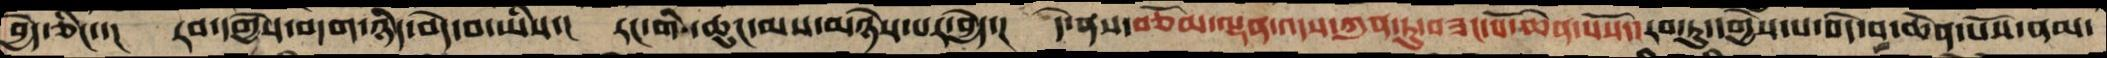བྱེད་ཅིང་་།  རབ་དགྱེས་བདག་ཉིད་བདེ་བ་ཡིས་།  རང་གི ་ཆུང་མས་མཉེས་པར་བྱེད་།  དེ་ནས་བཅོམ་ལྡན་འདས་ཀུན་ཏུ་བཟང་པོ་ཆེན་པོས་་རབ་ཏུ་དགྱེས་པ་བདེ་བ་ཆེན་པོས་ནམ་
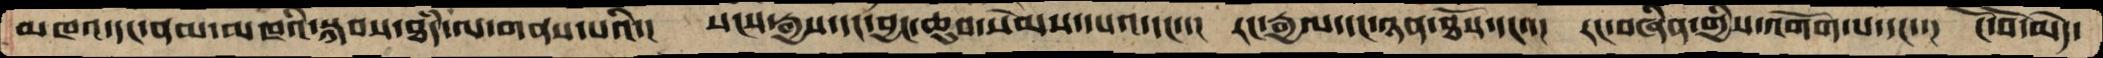མཁའ་དང་ནམ་མཁའི་སྐབས་ཐཾད་ལ་གནས་པའི་།  སངས་རྒྱས་དང་བྱང་ཆུབ་སེམས་དཔའ་དང་་།  རང་རྒྱལ་དང་ཉན་ཐོས་དང་་།  རང་བཞིན་གྱིས་འགོག་པ་དང་་།  ངོ་བོ་མེད་
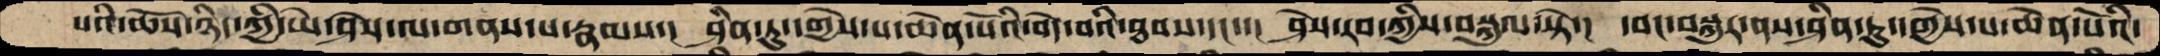པའི་ཆོས་ཉིད་ཀྱི་ཡེ་ཤེས་ལ་གནས་པ་རྣམས་།  ཤིན་ཏུ་དགྱེས་པ་ཆེན་པོའི་བདེ་བའི་ཐབས་དང་་།  ཤེས་རབ་ཀྱིས་བསྐུལ་སྟེ་།  དབང་བསྐུར་ནས་ཤིན་ཏུ་དགྱེས་པ་ཆེན་པོའི་
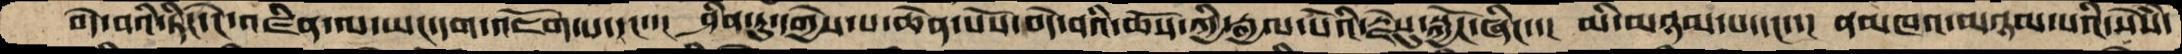བདེ་བའི་ཏིང་ངེ་འཛིན་ལ་ཡང་དག་འཇོག་པ་དང་་།  ཤིན་ཏུ་དགྱེས་པ་ཆེན་པོས་བདེ་བའི་ཆོས་ཀྱི་རྒྱལ་པོའི་རྗེསུ་སྐྱོང་ཞིང་་།  མི་མཉམ་པ་དང་་།  ནམཁའ་མཉམ་པའི་སེསཾ་
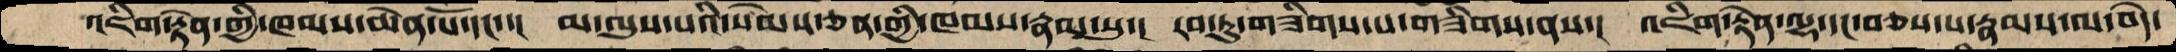འཇིག་རྟེན་གྱི་ཁམས་ཆེན་པོ་དང་་།  མ་ལུས་པའི་སེམས་ཅན་གྱི་ཁམས་རྣམ་སུ་།  རབ་ཏུ་གཟིགས་པ་གཟིགས་ནས་།  འཇིག་རྟེན་ལྷ་དང་བཅས་པ་རྣམས་ལ་བདེ་
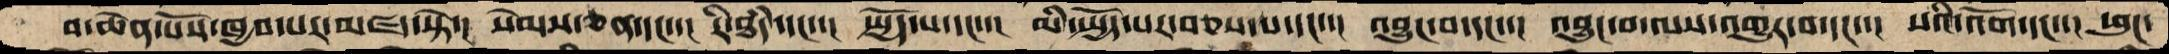བ་ཆེན་པོས་ཁྱབ་པར་མཛད་སྟེ་།  སེམས་ཅན་དང་་།  རི་ཐཾད་དང་་།  སྤྱོད་པ་དང་་།  མི་སྤྱོད་པར་བཅས་པ་དང་་།  འབྱུང་བ་དང་་།  འབྱུང་བ་ལས་འགྱུར་བ་དང་་།  སའི་འོག་དང་་།  ཕུང་
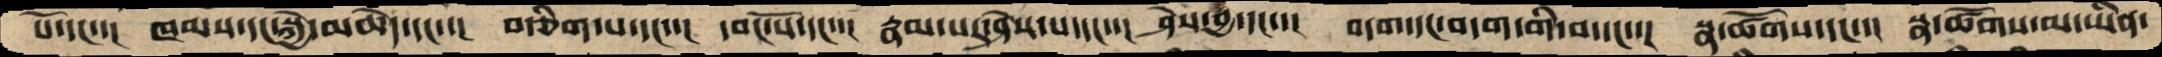པོ་དང་་།  ཁམས་དང་སྐྱེ་མཆེད་དང་་།  བརྩིག་པ་དང་་།  དབང་པོ་དང་་།  རྣམ་པར་ཤེས་པ་དང་་།  ཤེས་བྱ་དང་་།  བདག་དང་བདག་གི་བ་དང་་།  སྣ་ཚོགས་དང་་།  སྣ་ཚོགས་མ་ཡིན་
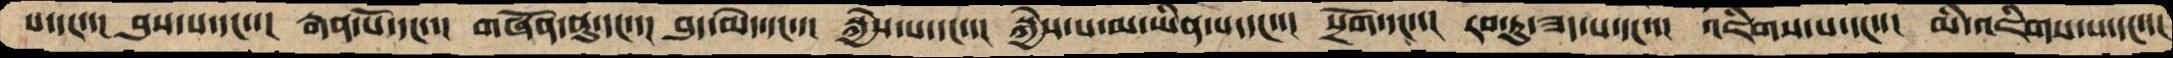པ་དང་་།  བུས་པ་དང་་།  རྒན་པོ་དང་་།  གཞོན་ནུ་དང་་།  བུ་མེད་དང་་།  སྐྱེས་པ་དང་་།  སྐྱེས་པ་མ་ཡིན་པ་དང་་།  སྲོག་དང་་།   རབ་ཏུ་ཟད་པ་དང་་།  འཇིགས་པ་དང་་།  མི་འཇིགས་པ་དང་་།
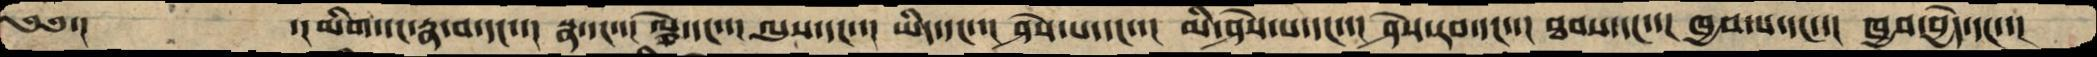༄༅་།           ་། མིག་དང་རྣ་བ་དང་་། སྣ་དང་་། ལྕེ་དང་་། ལུས་དང་་། ཡིད་དང་་། ཤེས་པ་དང་་། མི་ཤེས་པ་དང་་། ཤེས་རབ་དང་་། ཐབས་དང་་། ཁྱབ་པ་དང་་། ཁྱབ་བྱེད་དང་་།
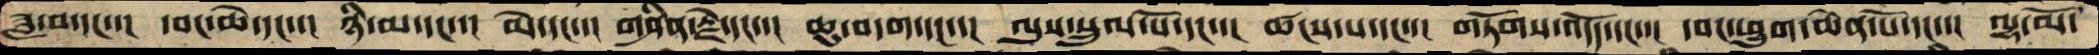ཟླ་བ་དང་་།  དབང་ཆེ་དང་་།  ཉིི་མ་དང་་།  མེ་དང་་། གཤིན་རྗེ་དང་་།  ཆུ་བདག་དང་་།  ལུས་སྲུལ་པོ་དང་་།  ཚངས་པ་དང་་།  གཏོགས་འདོད་དང་་། དབང་ཕྱུག་ཆེན་པོ་དང་་།  ལྷ་མོ་
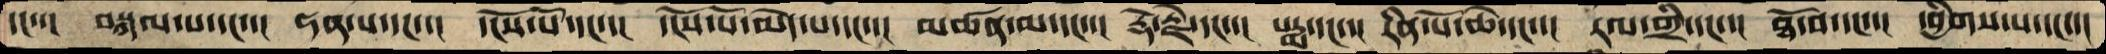དང་་།  བསྐལ་པ་དང་་། ཧན་པ་དང་་།  དངོས་པོ་དང་་།།  དངོས་པོ་མེད་པ་དང་་།  མཚན་མ་དང་་།  རྡོ་རྗེ་དང་་།  པདྨ་དང་་།  རིན་པོ་ཆེ་དང་་།  རལ་གྲི་དང་་།།  ཐོ་བ་དང་་།  དབྱིགས་པ་དང་་།
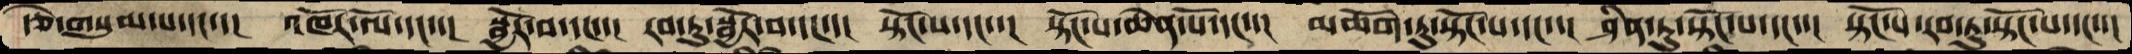རྩེ་གསུམ་པ་དང་་།  འཁོར་ལོ་དང་་།  སྦྱོར་བ་དང་་།  རབ་ཏུ་སྦྱོར་བ་དང་་།  སྟོང་པ་དང་་།  སྟོང་པ་ཆེན་པོ་དང་་།  མཆོག་ཏུ་སྟོང་པ་དང་།  ཤིན་ཏུ་སྟོང་པ་དང་་།  སྟོང་པ་རབ་ཏུ་སྟོང་པ་དང་་།
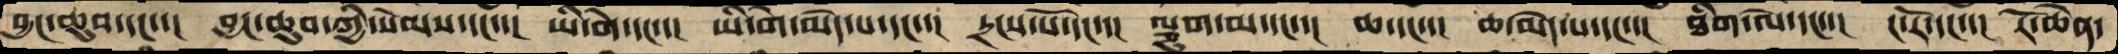བྱང་ཆུབ་དང་་།  བྱང་ཆུབ་ཀྱི་སེམས་དང་་།  ཡི་གེ་དང་་།  ཡི་གེ་མེད་པ་དང་་།  དྲངས་པོ་དང་་།  ལྕུག་མ་དང་་།  ཆ་དང་་།  ཆ་མེད་པ་དང་་།  ཐིག་ལེ་དང་་།  ང་རོ་དང་་།  རོ་ཆེན་
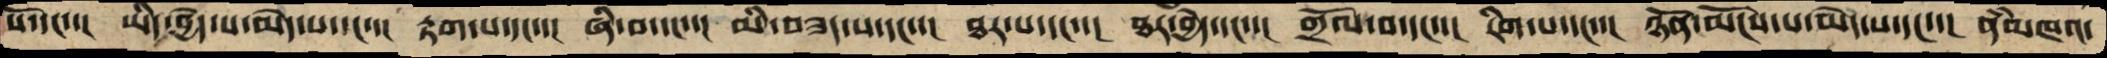སོ་དང་་།  ཡིད་བྱེད་པ་མེད་པ་དང་་།  རྟག་པ་དང་་།  ཞི་བ་དང་་།  མི་བཟད་པ་དང་་།  ཐར་པ་དང་་།  ཐར་བྱེད་དང་་།  གྲོལ་བ་དང་་།  རིག་པ་དང་་།  ཉོན་མོངས་པ་མེད་པ་དང་་། ནཾམཁའ་
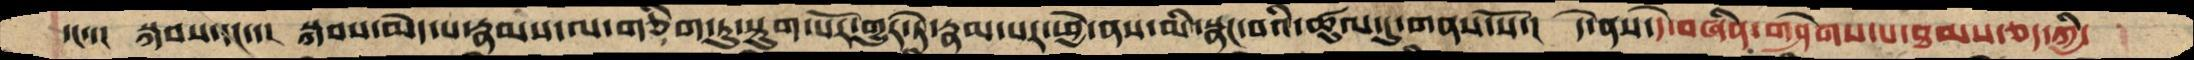དང་་།  སྐབས་དང་་།  སྐབས་མེད་པ་རྣམས་ལ་གཅིག་ཏུ་སྡུག་པོར་གྱུར་ཏེ་རྣམ་པར་ཕྱེ་ནས་མི་སྣང་བའི་ཚུལ་དུ་གནས་སོ་།  དེ་ནས་དེ་བཞིན་གཤེགས་པ་ཐམས་ཅད་ཀྱི་
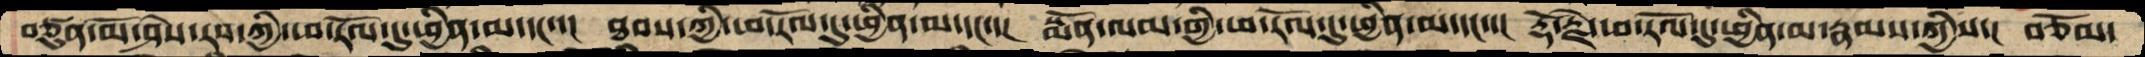བཙུན་མོ་ཤེས་རབ་ཀྱི་ཕ་རོལ་དུ་ཕྱིན་མ་དང་་།  ཐབས་ཀྱི་ཕ་རོལ་དུ་ཕྱིན་མ་དང་་།  སྨོན་ལམ་གྱི་ཕ་རོལ་དུ་ཕྱིན་མ་དང་་།  རྡོ་རྗེ་ཕ་རོལ་དུ་ཕྱིན་མ་རྣམས་ཀྱིས་།  བཅོམ་
